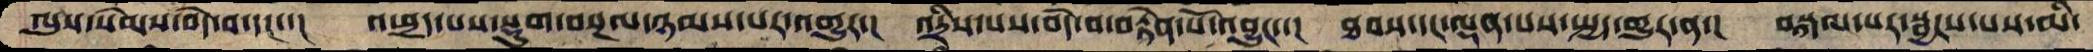ལུས་སེམས་བདེ་བ་དང་་། འཕྲད་པས་སྡུག་བསྔལ་ཉམས་པར་འགྱུར་།  འདྲིས་པས་བདེ་བ་བརྟེན་པོ་འབྱུང་་།  ཐབས་དང་ལྡན་པས་སྤྱད་གྱུར་ན་།  བསྐལ་པར་སྦྱངས་པས་མི་
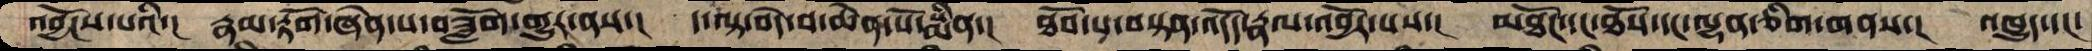འབྱོངས་པའི་།  རྣམ་རྟོག་ཞེན་པ་བཟློག་གྱུར་ནས་།  ད་ལྟ་བདེ་བ་ཆེན་པོ་སྨིན་།  ཐོབ་པ་བསྟན་འདོད་རྣལ་འབྱོར་པས་།  མཐོང་དང་ཐོས་དང་ལྷན་ཅིག་གནས་།  འཁྱུད་དང་
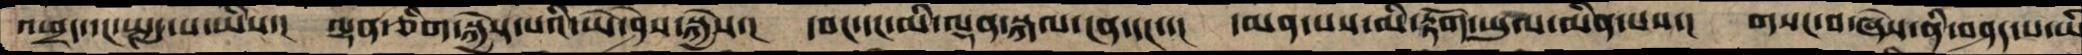འཕྲད་དང་སྤྱད་པ་ཡིས་།  ལྷན་ཅིག་སྐྱེས་པའི་ཡེ་ཤེས་སྐྱེས་།  དབང་དང་མི་ལྡན་སྐལ་ངན་དང་་།  དམན་པས་མི་རྟོག་ཡུལ་མིན་པས་། གསང་བ་ཞེས་ནི་བཤད་པ་ཡི
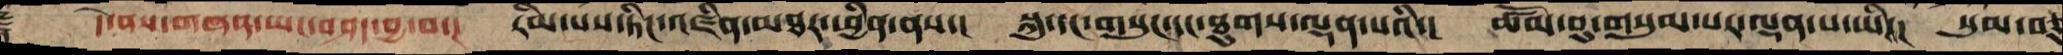࿑    དེ་ནས་གཞན་ཡང་བཤད་བྱ་བ་།  རིམ་པས་ཏིང་འཛིན་མཐར་ཕྱིན་ནས་།  སྐུ་དང་གསུང་དང་ཐུགས་ལྡན་པའི་།  ཚོམ་བུ་གསུམ་པར་ལྡན་པ་ཡི་།  སུམ་བཅུ
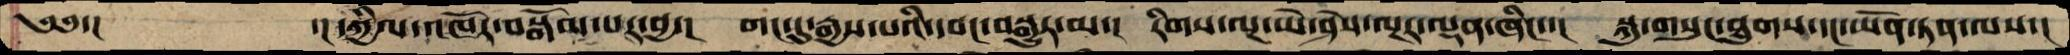༄༅་།       ་། དཀྱིལ་འཁོར་བསྒོམ་པར་བྱ་།  གང་དུ་རྒྱས་པའི་དབང་བསྒྱུར་མ་།  རིགས་ལྔ་ཡེ་ཤེས་ལྔར་ལྡན་ཞིང་་།  སྐུ་གསུང་ཐུགས་དང་ཡོན་ཏན་ལས་།
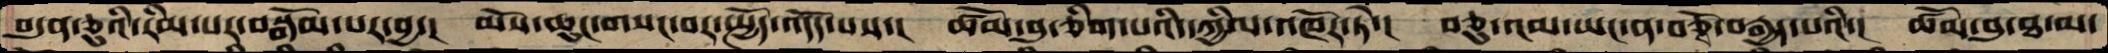བདུན་ཅུའི་རིམ་པར་བསྒོམ་པར་བྱ་།  མོས་ཆུང་གསང་བར་སྤྱོད་འདོད་པས་།   ཚོམ་བུ་ཅིག་པའི་དཀྱིལ་འཁོར་ཏེ་།  བཅུ་འམ་ཡང་ན་བཅྭོ་བརྒྱད་པའི་།  ཚོམ་བུ་ཐ་མ་
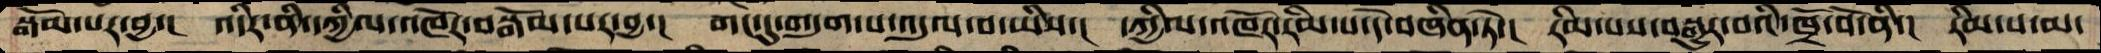སྒོམ་པར་བྱ་།  འདིར་ནི་དཀྱིལ་འཁོར་བསྒོམ་པར་བྱ་།  གང་དུ་གདུག་པ་འདུལ་བ་ཡིས་།  དཀྱིལ་འཁོར་རིམ་པ་དེ་བཞིན་ཏེ་།  རིམ་པས་བསྒྱུར་བའི་ཁྲོ་བོ་ནི་།  རིམ་པ་མ་
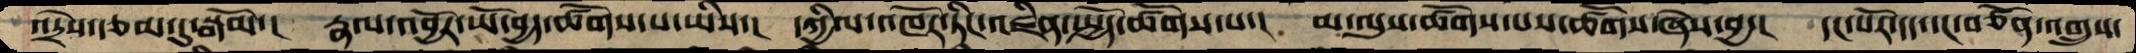འདྲེས་རྩམ་དུ་སྒོམ་།  རྣལ་འབྱོར་ཡོ་བྱད་ཚོགས་པ་ཡིས་།  དཀྱིལ་འཁོར་ཏིང་འཛིན་སྤྱོད་ཚོགས་པ་།  མ་ལུས་ཚོགས་པས་ཚོགས་ཞེས་བྱ་།  དང་པོར་དད་དང་བཙོན་འགྲུས་
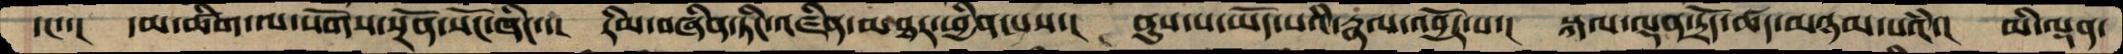དང་་།  དམ་ཚིག་ལ་སོགས་སྔོན་སོང་ཞིང་་།  རིམ་བཞིན་ཏིང་འཛིན་མཐར་ཕྱིན་པས་།  ནུས་པ་ཡོད་པའི་རྣལ་འབྱོར་པ་།  སྐལ་ལྡན་དྲོད་ཚད་མཉམ་པའཾ་།  མི་ལྡན་
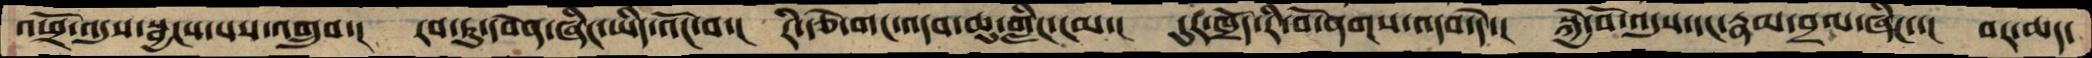འཕྲོ་འདུས་སྦྱངས་པས་འགྲུབ་།  རབ་ཏུ་དབེན་ཞིང་ཡིད་འོང་བ་།  རི་རྩེ་གང་འདབ་ཆུ་གླིང་ངམ་།  དུར་ཁྲོད་རི་བོ་ནགས་འདབ་དེ་།  སྐྱེ་བོ་འདུས་དང་རྣམ་བྲལ་ཞིང་་།  བར་ཆད་
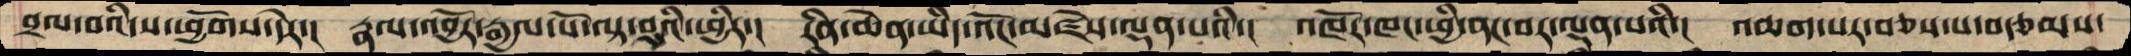བྲལ་བའི་ས་ཕྱོགས་དེར་།  རྣལ་འབྱོར་རྒྱལ་པོ་ལྟ་བུའི་ཕྱིར་།  རིན་ཆེན་ཡིད་འོང་མཛེས་ལྡན་པའི་།  འཁོར་ཁང་ཕྱི་ནང་བར་ལྡན་པའི་།  འཆག་པར་བཅས་པ་བརྩམས་
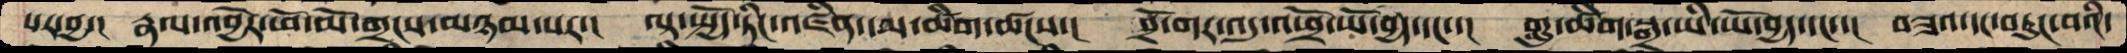པར་བྱ་།  རྣལ་འབྱོར་ཕོ་མོ་གྲངས་མཉམ་པར་།  ལྟ་སྤྱོད་ཏིང་འཛིན་དམ་ཚིག་ཚངས་།  བྲོ་གར་འདུ་འཕྲོ་ཡོ་བྱད་དང་་།  གླུ་ཚིག་སྒྲ་ཡི་ཡོ་བྱད་དང་་།  བཟའ་དང་བཏུང་བའི་
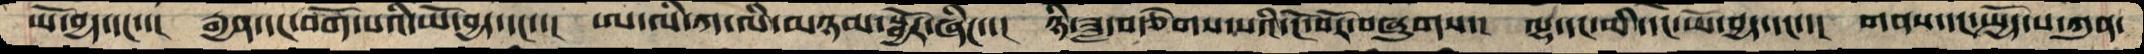ཡོ་བྱད་དང་་།  རྒྱན་དང་བགོ་པའི་ཡོ་བྱད་དང་་།  ཨ་ལི་ཀ་ལི་མཉམ་སྦྱོར་ཞིང་་།  ཉི་ཟླ་བརྩེགས་པའི་ངོ་བོར་བཞུགས་།  ལྷ་དང་མི་དང་ཡོ་བྱད་དང་་།  གནས་དང་སྤྱོད་པ་ཀུན་
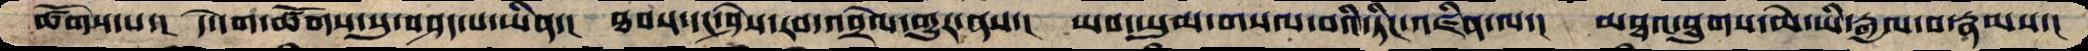ཚོགས་པ་།  དེ་དག་ཚོགས་སུ་བཤད་པ་ཡིན་།  ཐབས་དང་ཤེས་རབ་འབྲེལ་གྱུར་ནས་།  ཡབ་ཡུམ་གསལ་བའི་ཏིང་འཛིན་ལ་།  མཐའ་ཐུགས་མེ་ཡི་རྒྱལ་བ་རྣམས་།
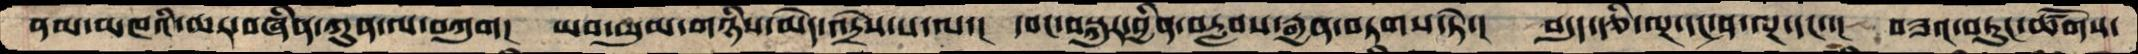ནམ་མཁའི་ཆར་བཞིན་ཀུན་ལ་བཀུག།  ཡབ་ཡུམ་གཉིས་མེད་འདྲེས་པ་ལ་།  དབང་བསྐུར་བྱིན་བརླབས་རྒྱན་བཏགས་ཏེ་།  བདུད་རྩི་ལྔ་དང་ཤ་ལྔ་དང་་།  བཟའ་བཏུང་ཚོགས་
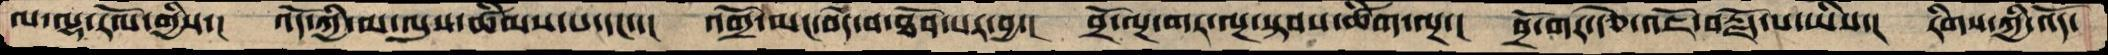ལ་ལྷ་རོལ་གྱིས་།  འོད་ཀྱི་མ་ལུས་ཚིམས་པ་དང་་།  འགྲོ་མང་བདེ་བ་ཐོབ་པར་བྱ་།  བྲོ་ལྔ་གར་ལྔ་སྟབས་ཚིག་ལྔ་།  བྲོ་གར་རྩེ་འཇོ་བརྗོད་པ་ཡིས་།  རིགས་ཀྱི་འོད་
